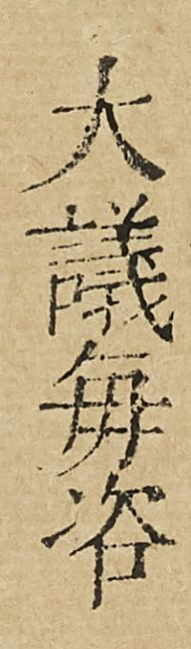大議每咨
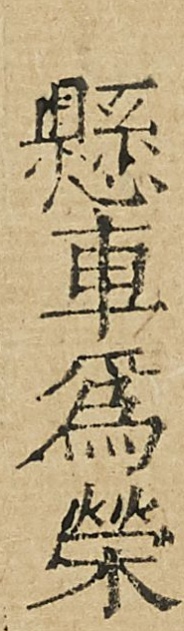縣車為榮
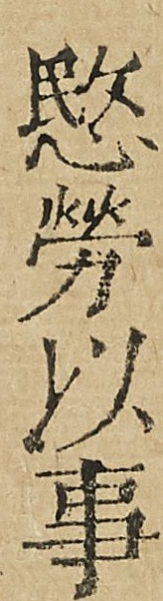愍勞以事
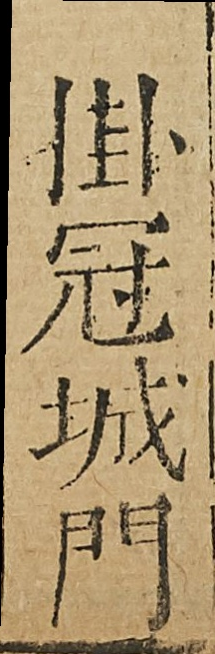掛冠城門
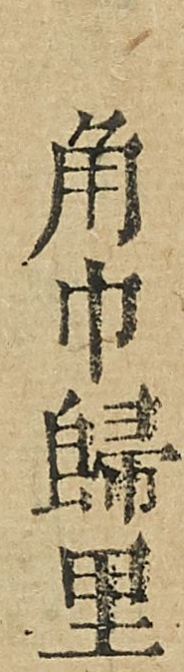角巾歸里
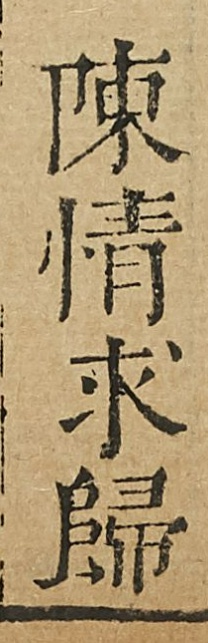陳情求歸
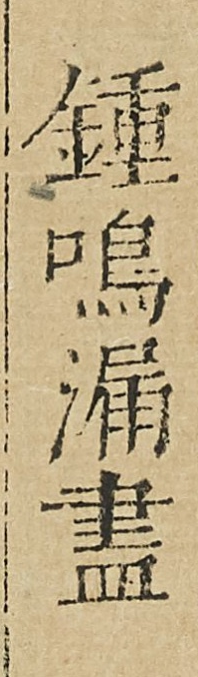鍾鳴漏盡
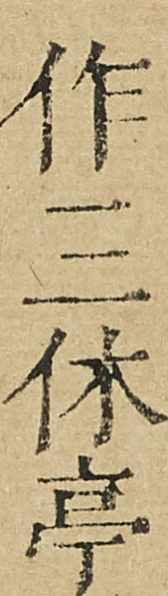作三休亭
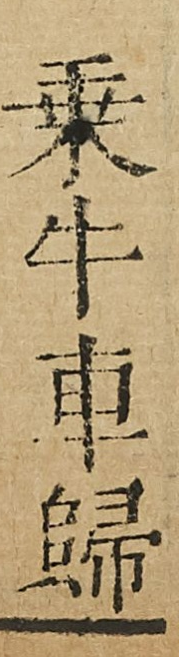乘牛車歸
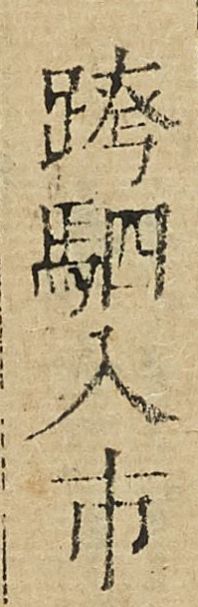跨駟入市
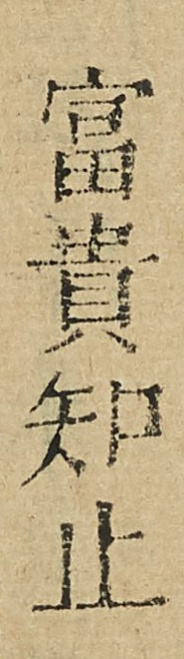富貴知止
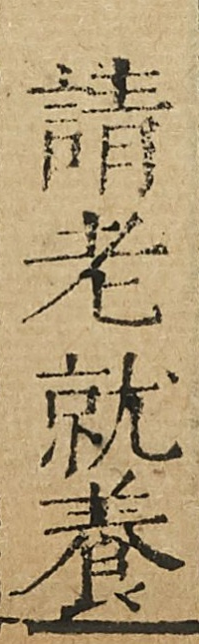請老就養
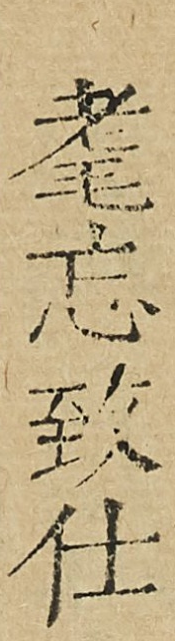耄忘致仕
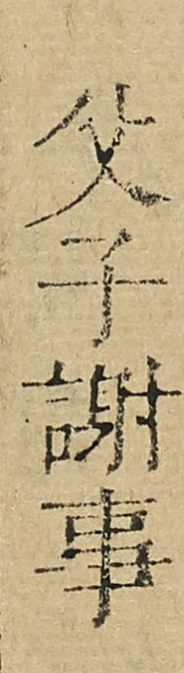父子謝事
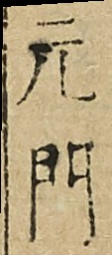元門
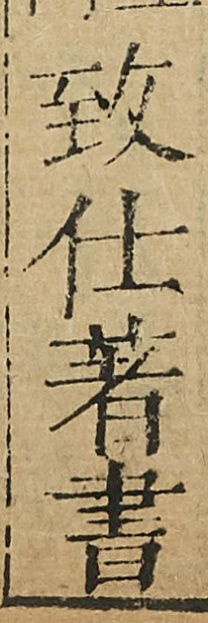致仕著書
